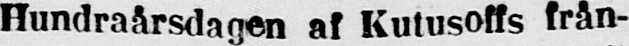Hundraårsdagen af Kutusoffs från-
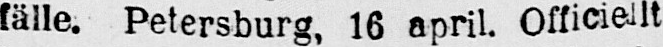fälle. Petersburg, 16 april. Officiellt
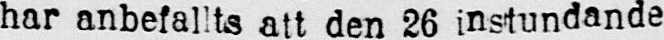har anbefallts att den 26 instundande
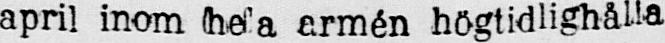april inom hefa armén högtidlighålla
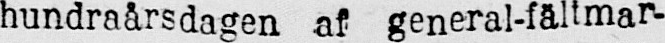hundraårsdagen af general-fältmar-
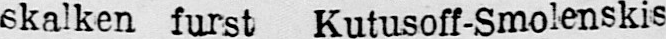skalken furst Kutusoff-Smolenskis
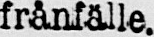frånfälle.
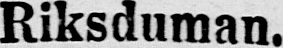Riksduman.
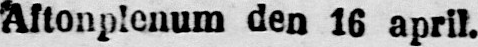Altonplenum den 16 april.
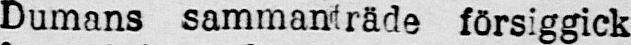Dumans sammanträde försiggick
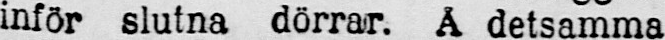inför slutna dörrar. Å detsamma
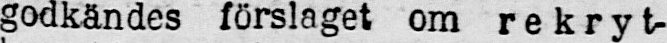godkändes förslaget om rekryt-
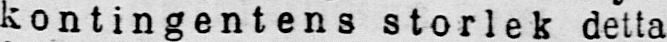kontingentens storlek detta
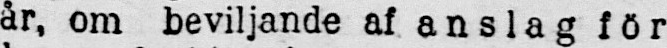år, om beviljande af anslag för
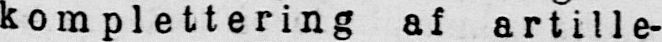komplettering af artille-
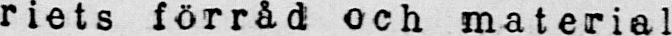riets förråd och material
